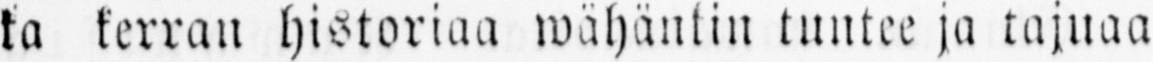ka kerran historiaa wähäntin tuntee ja tajuaa
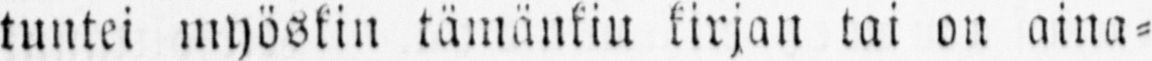tuntei myöskin tämänkiu kirjan tai on aina-
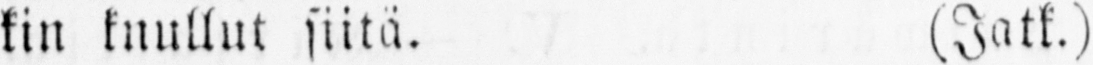kin kuullut siitä. (Jatk.)
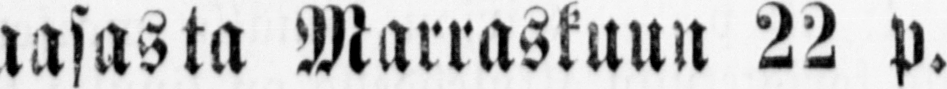Waasasta Marraskuun 22 p.
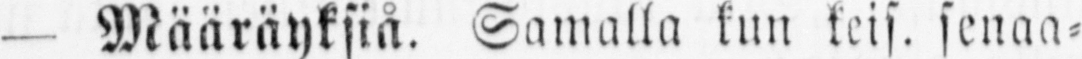— Määräyksiå Samalla kun keis. senaa-
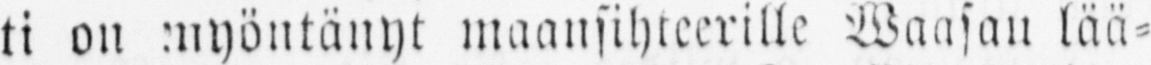ti on myöntänyt maansihteerille Waasan lää-
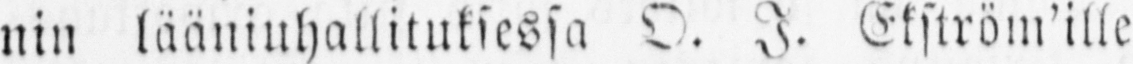nin lääniuhallituksessa O. I. Ekström’ille
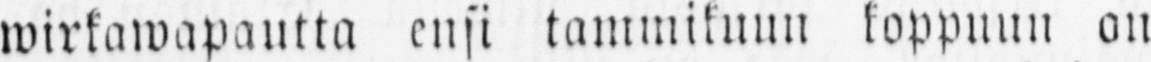wirkawapautta ensi tammikuun koppuun on
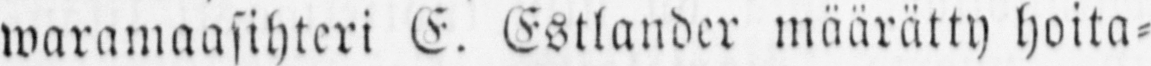waramaasihteri E. Estlander määrätty hoita-
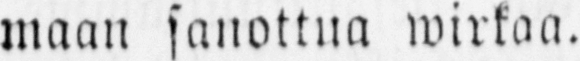maan sanottua wirkaa.
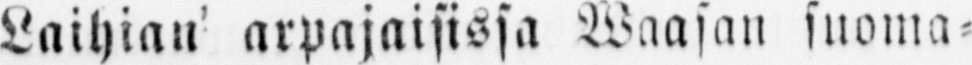— Laihian arpajaisissa Wa a san suoma-
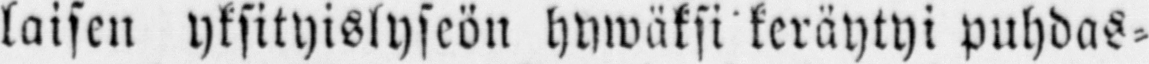laisen yksityislyseön hywäksi keräytyi puhdas-
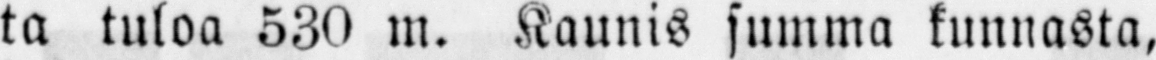ta tuloa 530 m. Kaunis summa kunnasta,
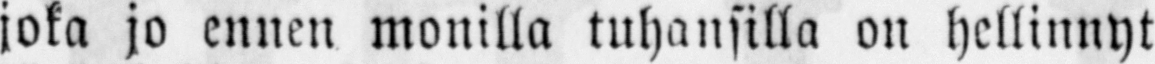joka jo ennen monilla tuhansilla on hellinnyt
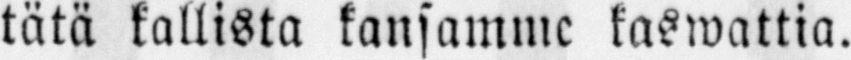tätä kallista kansamme kaswattia.
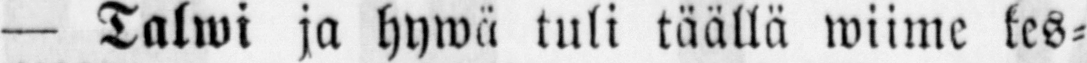— Talwi ja hywä tuli täällä wiime kes-
